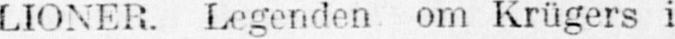LIONER. Legenden om Krügers i
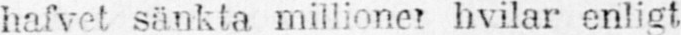hafvet sänkta millioner hvilar enligt,
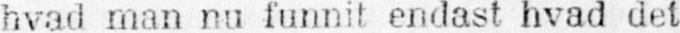hvad man nu funnit endast hvad det
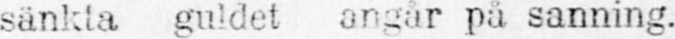sänkta guldet angår på sanning.
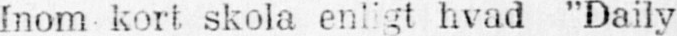Inom kort skola entigt hvad “Daily
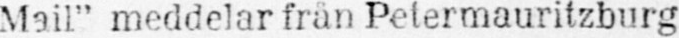Mail“ meddelar från Petermauritzburg
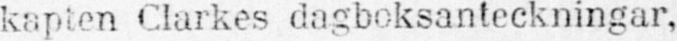kapten Clarkes dagboksanteckningar,
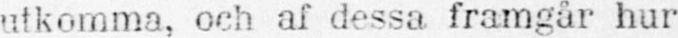utkomma, och af dessa framgår hur
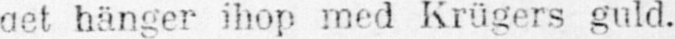get hänger ihop med Krügers guld.
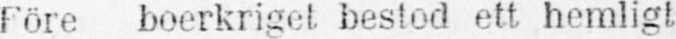Före boerkriget. bestod ett hemligt
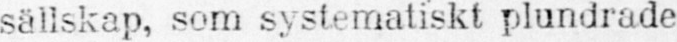sällskap, som systematiskt plundrade
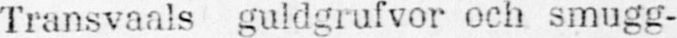Transvaals guldgrufvor och smugg-
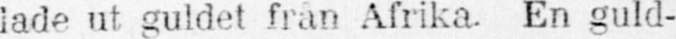lade ut guldet från Afrika. En guld-
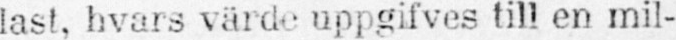last, hvars värde uppgifves till en mil-
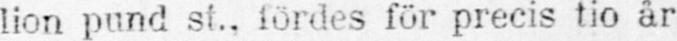lion pund st., fördes för precis tio år
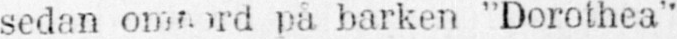sedan omnord på barken “Dorothea“
